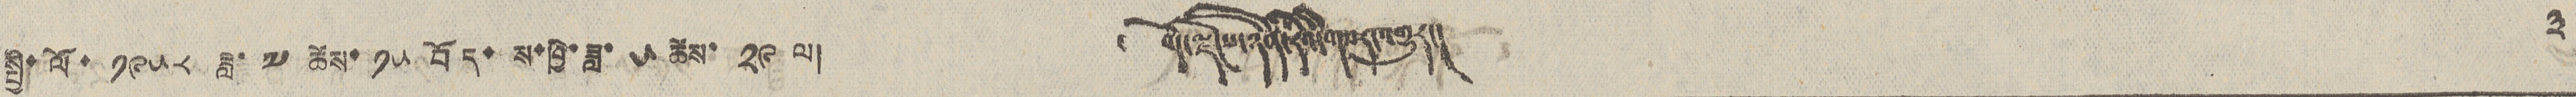སྤྱི་ལོ་ ༡༩༥༨ ཟླ་ ༧ ཚེས་ ༡༥ བོད་ ས་ཁྱི་ཟླ ༥ ཚེས་ ༢༩ ལ། ༄ བོད་ལྗོངས་ཉིན་རེའི་གསར་འགྱུར། ༣
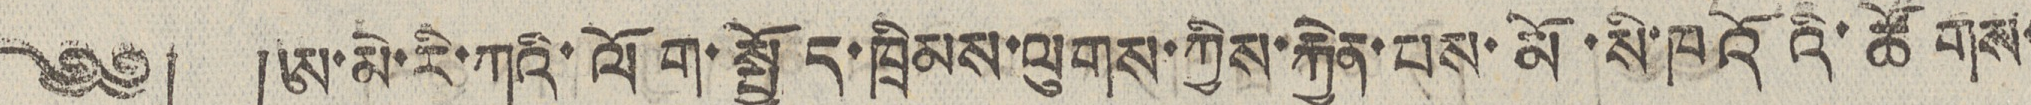༄༅། །ཨ་མེ་རི་ཀའི་ལོག་སྤྱོད་ཁྲིམས་ལུགས་ཀྱིས་རྐྱེན་པས་མོ་སི་ཁའོའི་ཚོགས་
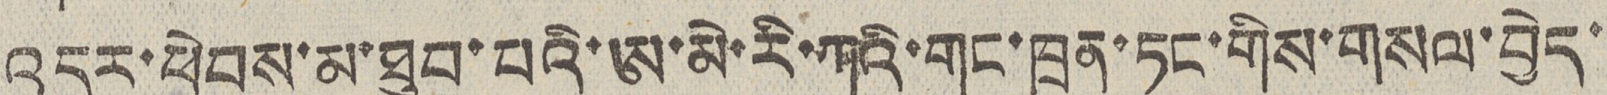འདུར་ཕེབས་མ་ཐུབ་པའི་ཨ་མེ་རི་ཀའི་གུང་ཁྲན་ཏང་གིས་གསལ་བྱེད་
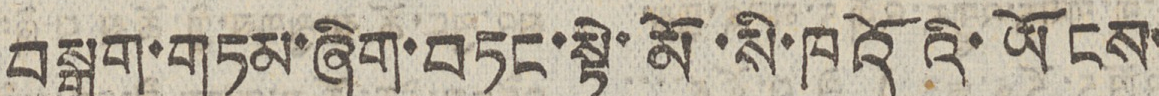བསྒྲག་གཏམ་ཞིག་བཏང་སྟེ་མོ་སི་ཁའོའི་ཡོངས་
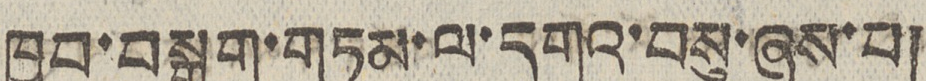ཁྱབ་བསྒྲག་གཏམ་ལ་དགའ་བསུ་ཞུས་པ།
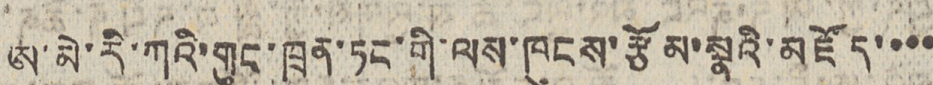ཨ་མེ་རི་ཀའི་གུང་ཁྲན་ཏང་གི་ལས་ཁུངས་རྩོམ་སྣའི་མཛོད་་་་
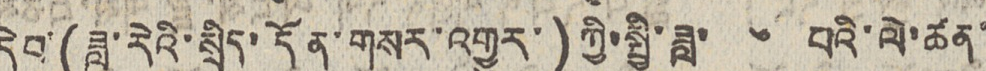དེབ་(ཟླ་རེའི་སྲིད་དོན་གསར་འགྱུར་)ཀྱི་སྤྱི་ཟླ་ ༦ པའི་ལེ་ཚན་
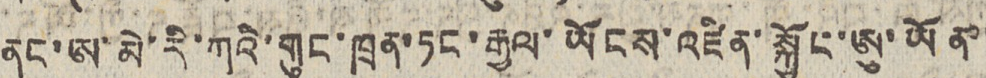ནང་ཨ་མེ་རི་ཀའི་གུང་ཁྲན་ཏང་རྒྱལ་ཡོངས་འཛིན་སྐྱོང་ཨུ་ཡོན་་
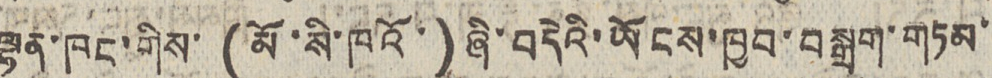ལྷན་ཁང་གིས་ (མོ་སི་ཁའོ་) ཞི་བདེའི་ཡོངས་ཁྱབ་བསྒྲག་གཏམ་
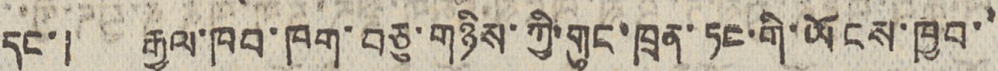དང་། རྒྱལ་ཁབ་ཁག་བཅུ་གཉིས་ཀྱི་གུང་ཁྲན་ཏང་གི་ཡོངས་ཁྱབ་་
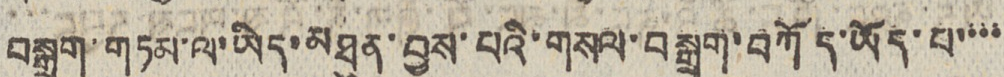བསྒྲག་གཏམ་ལ་ཡིད་མཐུན་བྱས་པའི་གསལ་བསྒྲག་བཀོད་ཡོད་པ་་་་
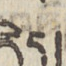རེད།
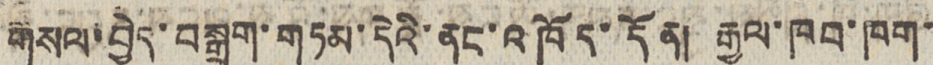གསལ་བྱེད་བསྒྲག་གཏམ་དེའི་ནང་འཁོད་དོན། རྒྱལ་ཁབ་ཁག་
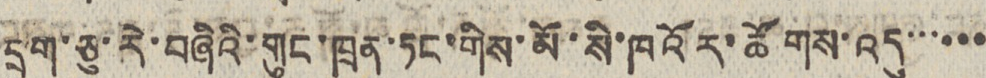དྲུག་ཅུ་རེ་བཞིའི་གུང་ཁྲན་ཏང་གིས་མོ་སི་ཁའོར་ཚོགས་འདུ་་་་་་
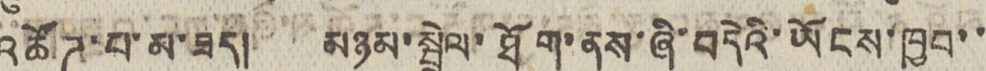འཚོཊ་པ་མ་ཟད། མཉམ་སྦྲེལ་ཐོག་ནས་ཞི་བདེའི་ཡོངས་ཁྱབ་་
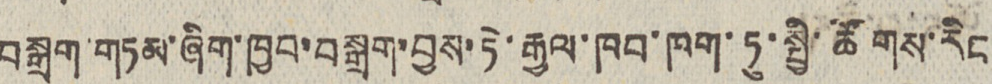བསྒྲག་གཏམ་ཞིག་ཁྱབ་བསྒྲག་བྱས་ཏེ་རྒྱལ་ཁབ་ཁག་ཏུ་སྤྱི་ཚོགས་རིང
